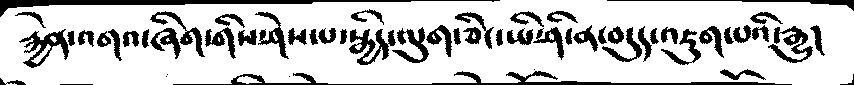རྐྱེན་འགའ་ཞིག་གིས་ཤེས་པ་སྒྱིད་ལུག་ཅིང་ཡི་ཤི་ན་བདུད་འཇུག་པའི་རྒྱུ།
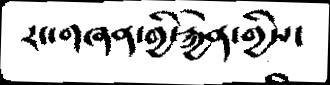རང་གཞན་གྱི་རྐྱེན་གྱིས་
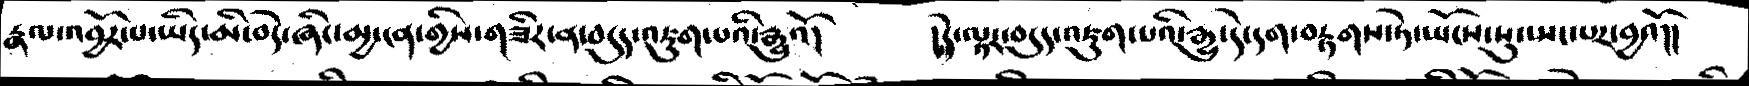རྣལ་འབྱོར་པ་ཡིད་མི་བདེ་ཞིང་མྱ་ངན་གྱིས་གཟིར་ན་བདུད་འཇུག་པའི་རྒྱུའོ།    །དེ་ལྟར་བདུད་འཇུག་པའི་རྒྱུ་དེ་དག་བརྟགས་ཏེ་ཡོངས་སུ་སྤང་པར་བྱའོ།།
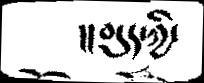།།བདུད་ཀྱི་
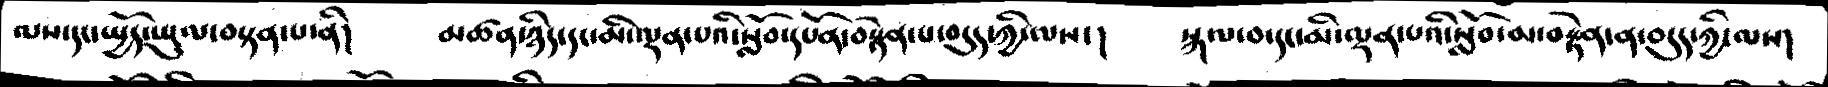ལས་དང་སྤྱོད་ཡུལ་བསྟན་པ་ནི།    མཚན་ཉིད་དང་མི་ལྡན་པའི་སློབ་དཔོན་བསྟེན་པ་བདུད་ཀྱི་ལས་།    སྐལ་བ་དང་མི་ལྡན་པའི་སློབ་མ་བརྟེན་ན་བདུད་ཀྱི་ལས།
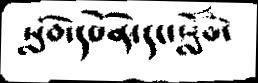སློབ་དཔོན་དང་སློབ་
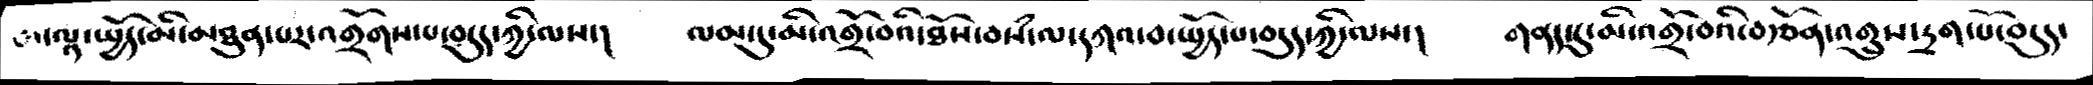མ་ལྟ་སྤྱོད་མི་མཐུན་པར་འགྲོགས་པ་བདུད་ཀྱི་ལས་།     ལམ་དུ་མི་འགྲོ་བའི་ཐོས་བསཾ་ལ་དཀའ་བ་སྤྱོད་པ་བདུད་ཀྱི་ལས་།   གནད་དུ་མི་འགྲོ་བའི་བརྩོན་འགྲུས་དྲག་པོ་བདུད་
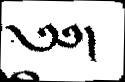༄༅།
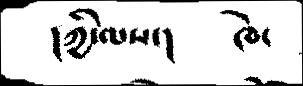།ཀྱི་ལས་།      ཁེ་
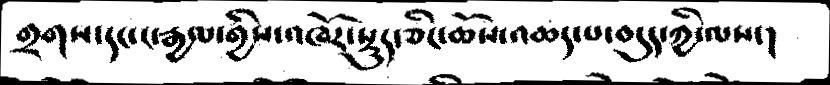གྲགས་དང་ང་རྒྱལ་གྱིས་འཁོར་སྡུད་ཅིང་ཆོས་འཆད་པ་བདུད་ཀྱི་ལས་།
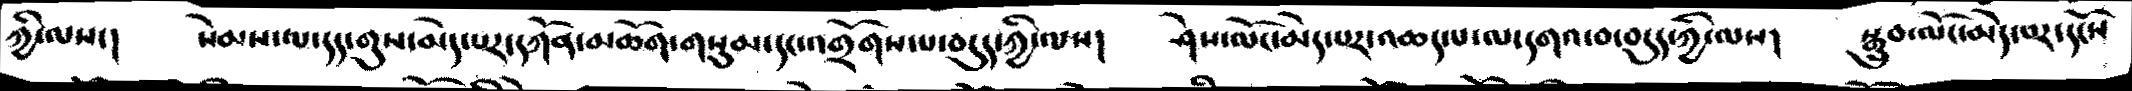ཀྱི་ལས་།     སེམས་ལ་དད་གུས་མེད་པར་དཀོན་མཆོག་གསུམ་དང་འགྲོགས་པ་བདུད་ཀྱི་ལས།    ཤེས་ལོང་མེད་པར་འཆད་པ་ལ་དགའ་བ་བདུད་ཀྱི་ལས།   སྒྲུབ་ལོང་མེད་པར་དངོས
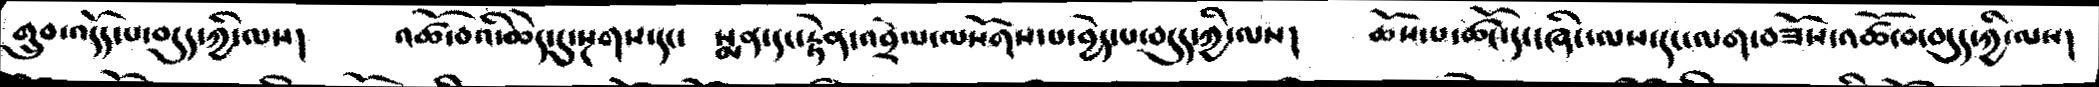གྲུབ་འདོད་པ་བདུད་ཀྱི་ལས།    འཚོ་བའི་ཆེད་དུ་སྔགས་དང་ སྨན་དང་རྟེན་འབྲེལ་ལསོགས་པ་བྱེད་པ་བདུད་ཀྱི་ལས།   ཆོས་པ་ཚོང་དང་ཞིང་ལས་དང་ལག་བཟོས་འཚོ་བ་བདུད་ཀྱི་ལས།
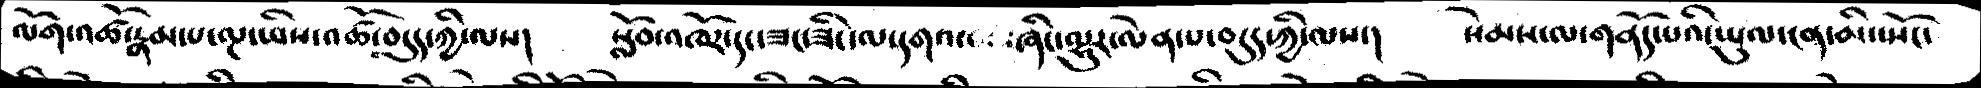ལོག་འཚོ་རྣམ་པ་ལྔ་ཡིས་འཚོ་བདུད་ཀྱི་ལས།    སློབ་འཁོར་དང་ཟང་ཟིང་ལ་དགའ་ ཞིང་ལྷུར་ལེན་པ་བདུད་ཀྱི་ལས་།    སེམས་ལ་གནོད་པའི་ཡུལ་ངན་མི་སྤོང་
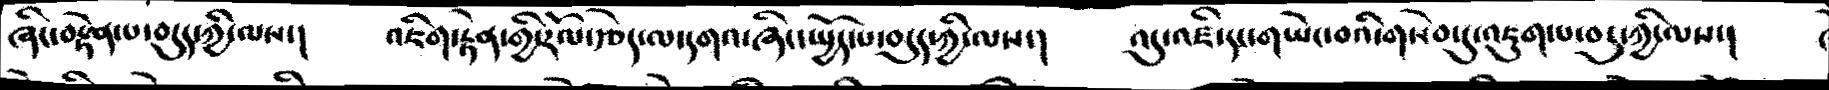ཞིང་བརྟེན་པ་བདུད་ཀྱི་ལས་།    འཇིག་རྟེན་གྱི་རོལ་རྩེད་ལ་དགའ་ཞིང་སྤྱོད་པ་བདུད་ཀྱི་ལས་།    འདུ་འཛི་དང་གཡེང་བའི་གསེབ་དུ་འཇུག་པ་བདུ་ཀྱི་ལས་།
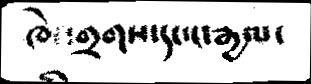ཁེ་གྲགས་དང་ང་རྒྱལ་
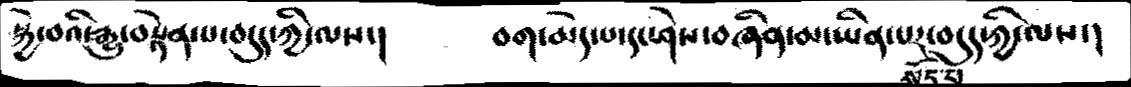སྐྱེ་བའི་རྒྱུ་བསྟེན་པ་བདུད་ཀྱི་ལས་།  བག་མེད་པ་དང་ཤེས་བཞིན་མ་ཡིན་པར་བདུད་ཀྱི་ལས་།
